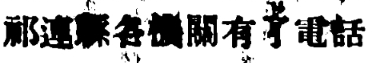祁連縣各機關有了電話
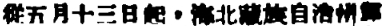從五月十三日起，海北藏族自治州祁
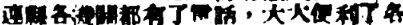連縣各機關都有了電話，大大便利了各
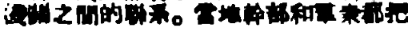機關之間的聯繫。當地幹部和羣衆都把
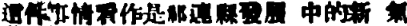這件事情看作是祁連縣發展 中的新 氣
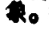象。
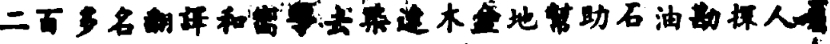二百多名翻譯和嚮導去柴達木盆地幫助石油勘探人員
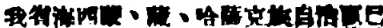我省海西蒙、藏、哈薩克族自治區已
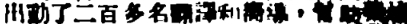出動了二百多名翻譯和嚮導，幫助柴達
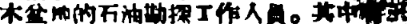木盆地的石油勘探工作人員。其中有五
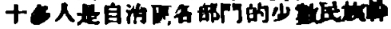十多人是自治區各部門的少數民族幹
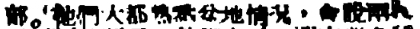部。他們大都熟悉盆地情況，會說兩至
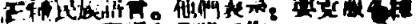三種民族語言。他們表示：要克服各種
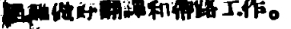困難做好翻譯和帶路工作。
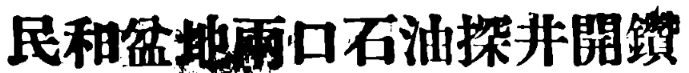民和盆地兩口石油探井開鑽
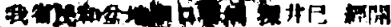我省民和盆地兩口石油探井已 經開
